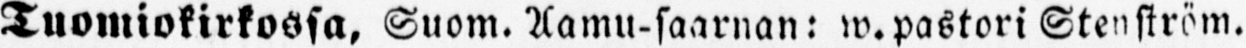Tuomiokirkossa, Suom. Aamu-saarnan: w. pastori Stenström.
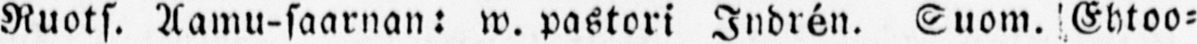Ruots. Aamu-saarnan: w. pastori Indrén. Suom. Ehtoo-
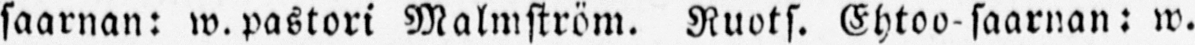saarnan: w. pastori Malmström. Ruots. Ehtoo-saarnan: w.
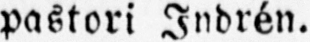pastori Indrén.
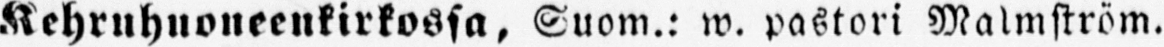Kehruhuoneenkirkossa , Suom.: w. pastori Malmström.
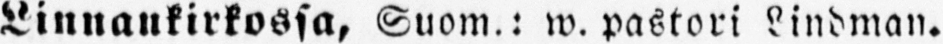Linnankirkossa, Suom.: w. pastori Lindman.
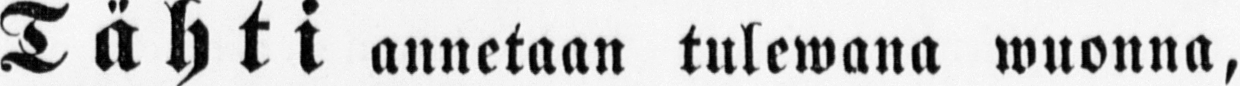Tähti annetaan tulewana wuonna,
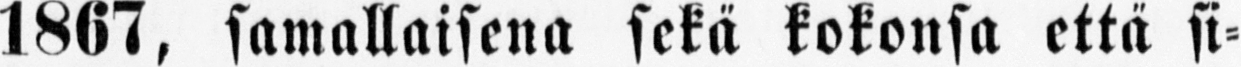1867, samallaisena sekä kokonsa että si-
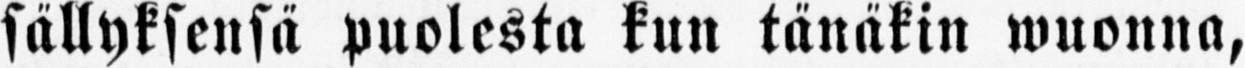sällyksensä puolesta kun tänäkin wuonna,
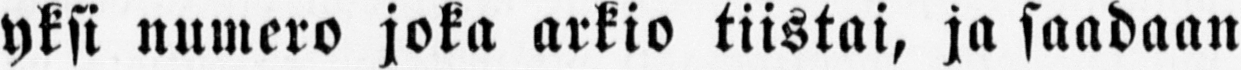yksi numero joka arkio tiistai, ja saadaan
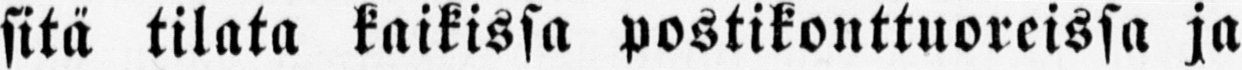sitä tilata kaikissa postikonttuoreissa ja
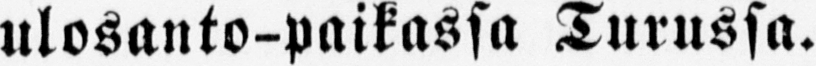ulosanto-paikassa Turussa.
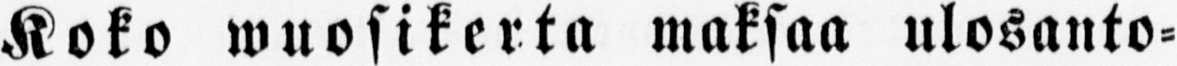Koko wuosikerta maksaa ulosanto-
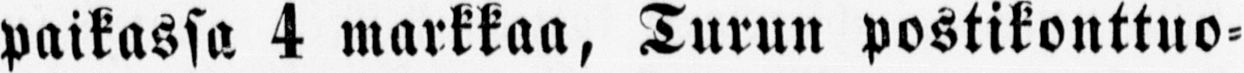paikassa 4 markkaa, Turun postikonttuo-
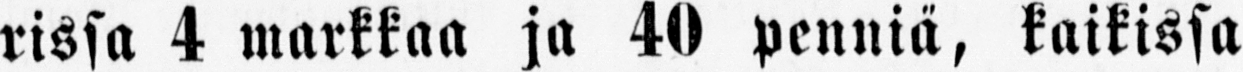rissa 4 markkaa ja 40 penniä, kaikissa
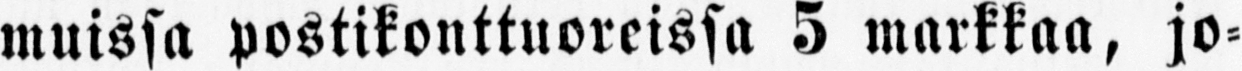muissa postikonttuoreissa 3 markkaa, jo-
